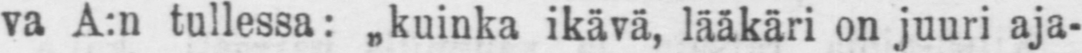va tullessa: ˶Kuinka ikävä, lääkäri on juuri aja-
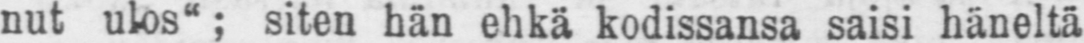nut ulos"; siten hän ehkä kodissansa saisi häneltä
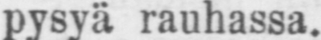pysyä rauhassa.
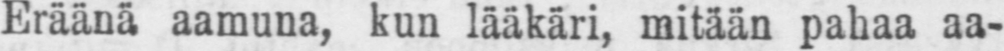Eräänä aamuna, kun lääkäri, mitään pahaa aa-
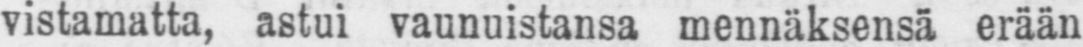vistamatta, astui vaunuistansa mennäksensä erään
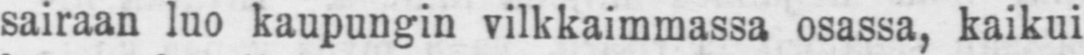sairaan luo kaupungin vilkkaimmassa osassa, kaikui
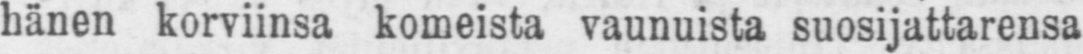hänen korviinsa komeista vaunuista suosijattarensa
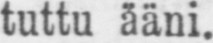tuttu ääni.
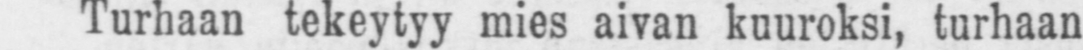Turhaan tekeytyy mies aivan kuuroksi, turhaan
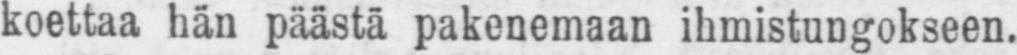koettaa hän päästä pakenemaan ihmistungokseen.
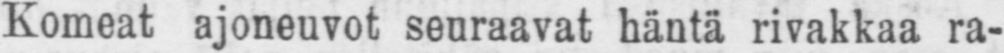Komeat ajoneuvot seuraavat häntä rivakkaa ra-
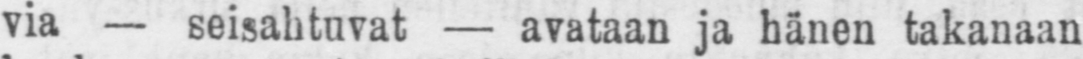via — seisahtuvat — avataan ja hänen takanaan
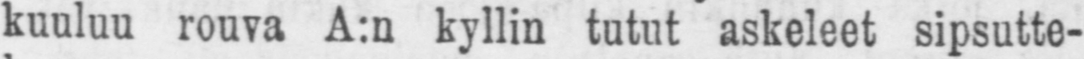Kuuluu rouva A:n kyllin tutut askeleet sipsutte-
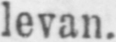levan.
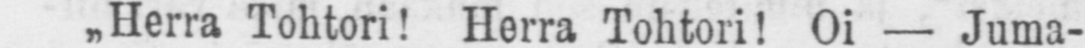˶Herra Tohtori! Herra Tohtori! Oi — Juma-
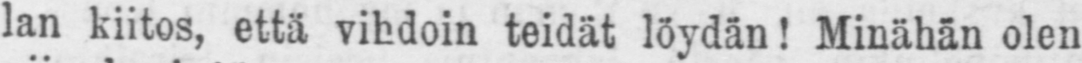lan kiitos, että vihdoin teidät löydän! Minähän olen
